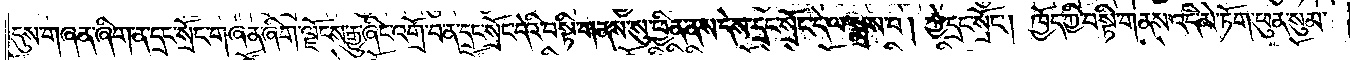དུས་གཞན་ཞིག་ན་དྲང་སྲོང་གཞན་ཞིག་ལྗོངས་རྒྱུ་ཞིང་འགྲོ་བ་ན་དྲང་སྲོང་དེའི་བསྟི་གནས་སུ་ཕྱིན་ནས་དེས་དྲང་སྲོང་དེ་ལ་སྨྲས་པ། ཀྱེ་དྲང་སྲོང༌། ཁྱོད་ཀྱི་བསྟི་གནས་འདི་མེ་ཏོག་ཕུན་སུམ་
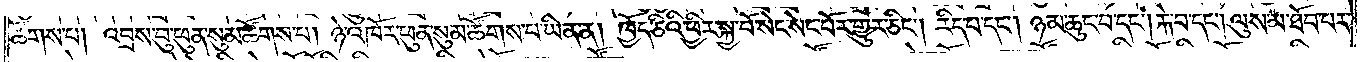ཚོགས་པ། འབྲས་བུ་ཕུན་སུམ་ཚོགས་པ། ཉེ་འཁོར་ཕུན་སུམ་ཚོགས་པ་ཡིན་ན། ཁྱོད་ཅིའི་ཕྱིར་སྐྱ་བོ་སེང་སེང་པོར་གྱུར་ཅིང༌། རིད་པ་དང༌། ཉམ་ཆུང་བ་དང༌། རྐེ་བ་དང༌། ལུས་མ་ཐོབ་པར་
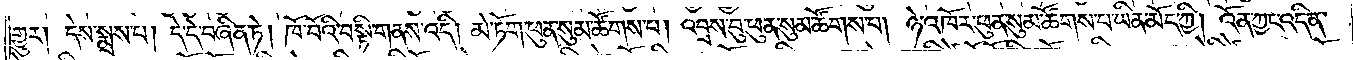གྱུར། དེས་སྨྲས་པ། དེ་དེ་བཞིན་ཏེ། ཁོ་བོའི་བསྟི་གནས་འདི། མེ་ཏོག་ཕུན་སུམ་ཚོགས་པ། འབྲས་བུ་ཕུན་སུམ་ཚོགས་པ། ཉེ་འཁོར་ཕུན་སུམ་ཚོགས་པ་ཡིན་མོད་ཀྱི། འོན་ཀྱང་འདི་ན་
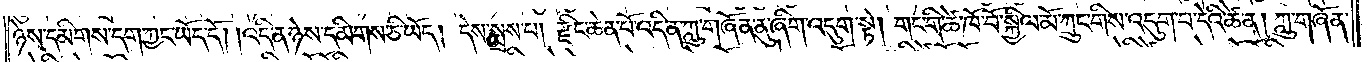ཉེས་དམིགས་དག་ཀྱང་ཡོད་དོ། །འདི་ན་ཉེས་དམིགས་ཅི་ཡོད། དེས་སྨྲས་པ། རྫིང་ཆེན་པོ་འདི་ན་ཀླུ་གཞོན་ནུ་ཞིག་འདུག་སྟེ། གང་གི་ཚེ་ཁོ་བོ་སྐྱིལ་མོ་ཀྲུང་གིས་འདུག་པ་དེའི་ཚེ་ན། ཀླུ་གཞོན་
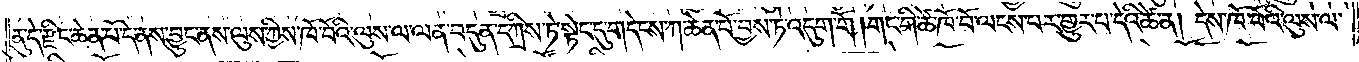ནུ་དེ་རྫིང་ཆེན་པོ་དེ་ནས་བྱུང་ནས་ལུས་ཀྱིས་ཁོ་བོའི་ལུས་ལ་ལན་བདུན་དཀྲིས་ཏེ་སྟེང་དུ་གདེངས་ཀ་ཆེན་པོ་བྱས་ཏེ་འདུག་གོ །གང་གི་ཚེ་ཁོ་བོ་ལངས་པར་གྱུར་པ་དེའི་ཚེ་ན། དེས་ཁོ་བོའི་ལུས་ལ་
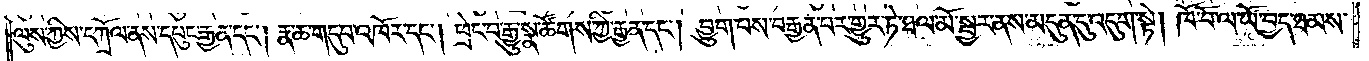ལུས་ཀྱིས་དཀྲོལ་ནས་དཔུང་རྒྱན་དང༌། རྣ་ཆ་གདུབ་འཁོར་དང༌། ཕྲེང་བ་རྒྱུ་སྣ་ཚོགས་ཀྱི་རྒྱན་དང༌། བྱུག་པས་བརྒྱན་པར་གྱུར་ཏེ་ཐལ་མོ་སྦྱར་ནས་མདུན་དུ་འདུག་སྟེ། ཁོ་བོ་ལ་ཡོ་བྱད་ཐམས་
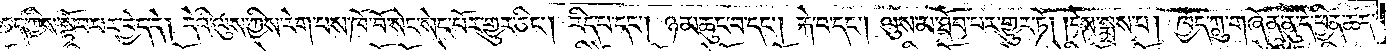ཅད་ཀྱིས་སྟོབ་པར་བྱེད་དེ། དེའི་ལུས་ཀྱིས་རེག་པས་ཁོ་བོ་སེང་སེང་པོར་གྱུར་ཅིང༌། རིད་པ་དང༌། ཉམ་ཆུང་བ་དང༌། རྐེ་བ་དང༌། ལུས་མ་ཐོབ་པར་གྱུར་ཏོ། །དེས་སྨྲས་པ། ཁྱོད་ཀླུ་གཞོན་ནུ་དེ་ཕྱིན་ཆད་
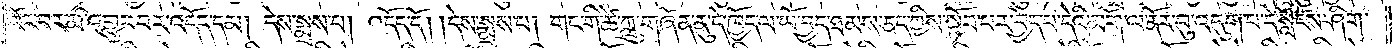འོང་བར་མི་འགྱུར་བར་འདོད་དམ། དེས་སྨྲས་པ། འདོད་དོ། །དེས་སྨྲས་པ། གང་གི་ཚེ་ཀླུ་གཞོན་ནུ་དེ་ཁྱོད་ལ་ཡོ་བྱད་ཐམས་ཅད་ཀྱིས་སྟོབ་པར་བྱེད་པ་དེའི་མགོ་ལ་ནོར་བུ་འདུག་པ་དེ་སློངས་ཤིག་
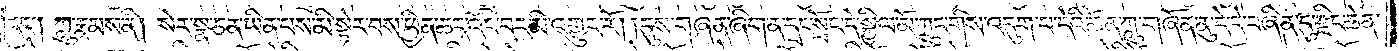དང༌། ཀླུ་རྣམས་ནི། སེར་སྣ་ཅན་ཡིན་པས་མི་སྟེར་བས་ཕྱིན་ཆད་འོང་བར་མི་འགྱུར་རོ། །དུས་གཞན་ཞིག་ན་དྲང་སྲོང་དེ་སྐྱིལ་མོ་ཀྲུང་གིས་འདུག་པ་དེའི་ཚེ་ན་ཀླུ་གཞོན་ནུ་དེ་དེ་བཞིན་དུ་རྫིང་ཆེན་
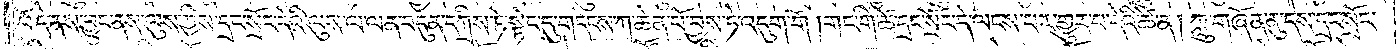པོ་དེ་ནས་བྱུང་ནས་ལུས་ཀྱིས་དྲང་སྲོང་དེའི་ལུས་ལ་ལན་བདུན་དཀྲིས་ཏེ་སྟེང་དུ་གདེངས་ཀ་ཆེན་པོ་བྱས་ཏེ་འདུག་གོ །གང་གི་ཚེ་དྲང་སྲོང་དེ་ལངས་པར་གྱུར་པ་དེའི་ཚེ་ན། ཀླུ་གཞོན་ནུ་དེས་དྲང་སྲོང་
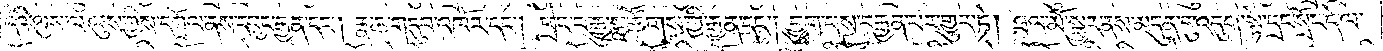དེའི་ལུས་ལ་ལུས་ཀྱིས་དཀྲོལ་ནས་དཔུང་རྒྱན་དང༌། རྣ་ཆ་གདུབ་འཁོར་དང༌། ཕྲེང་བ་རྒྱུ་སྣ་ཚོགས་ཀྱི་རྒྱན་དང༌། བྱུག་པས་བརྒྱན་པར་གྱུར་ཏེ། ཐལ་མོ་སྦྱར་ནས་མདུན་དུ་འདུག་སྟེ་དྲང་སྲོང་དེ་ལ་
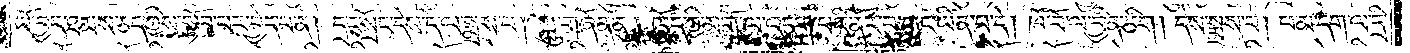ཡོ་བྱད་ཐམས་ཅད་ཀྱིས་སྟོབ་པར་བྱེད་པ་ན། དྲང་སྲོང་དེས་དེ་ལ་སྨྲས་པ། ཀླུ་གཞོན་ནུ། ཁྱོད་ཀྱི་མགོ་ལ་འདུག་པའི་ནོར་བུ་གང་ཡིན་པ་དེ། ཁོ་བོ་ལ་བྱིན་ཅིག །དེས་སྨྲས་པ། ཕ་མ་དག་ལ་དྲི་
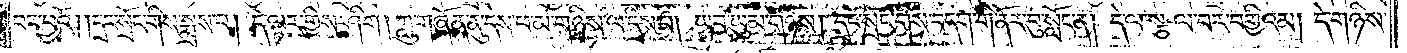བར་བྱའོ། །དྲང་སྲོང་གིས་སྨྲས་པ། དེ་ལྟར་གྱིས་ཤིག །ཀླུ་གཞོན་ནུ་དེས་ཕ་མ་གཉིས་ལ་དྲིས་པ། ཡབ་ཡུམ་གཉིས། དྲང་སྲོང་གིས་བདག་གི་ནོར་བུ་སློང་ན། དེ་ལ་སྩལ་བར་བགྱིའམ། དེ་གཉིས་
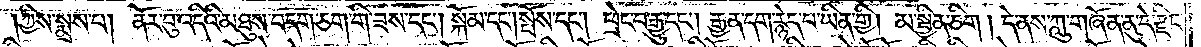ཀྱིས་སྨྲས་པ། ནོར་བུ་འདིའི་མཐུས་བདག་ཅག་གི་ཟས་དང༌། སྐོམ་དང༌། སྤོས་དང༌། ཕྲེང་བ་རྒྱུ་དང༌། རྒྱན་དག་རྙེད་པ་ཡིན་གྱི། མ་སྦྱིན་ཅིག །དེ་ནས་ཀླུ་གཞོན་ནུ་དེ་རྫིང་
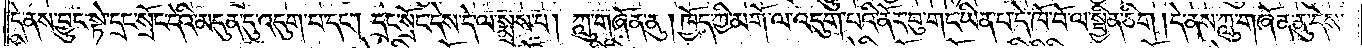དེ་ནས་བྱུང་སྟེ་དྲང་སྲོང་དེའི་མདུན་དུ་འདུག་པ་དང༌། དྲང་སྲོང་དེས་དེ་ལ་སྨྲས་པ། ཀླུ་གཞོན་ནུ། ཁྱོད་ཀྱི་མགོ་ལ་འདུག་པའི་ནོར་བུ་གང་ཡིན་པ་དེ་ཁོ་བོ་ལ་སྦྱིན་ཅིག །དེ་ནས་ཀླུ་གཞོན་ནུ་དེས་
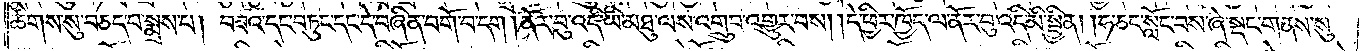ཚིགས་སུ་བཅད་པ་སྨྲས་པ། བཟའ་དང་བཏུང་དང་དེ་བཞིན་བགོ་བ་དང༌། ནོར་བུ་འདི་ཡི་མཐུ་ལས་འགྲུབ་འགྱུར་བས། །དེ་ཕྱིར་ཁྱོད་ལ་ནོར་བུ་འདི་མི་སྦྱིན། །ཧ་ཅང་སློང་བས་ཞེ་སྡང་གནས་སུ་
